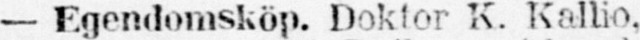— Egendomsköp. Doktor K. Kaltio,
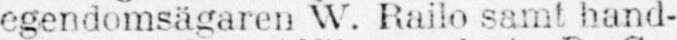egendomsägaren W. Railo samt hand-
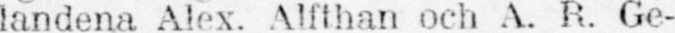landena Alex. Alfthan och A. R. Ge-
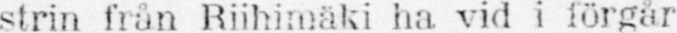strin från Riihimäki ha vid i förgår
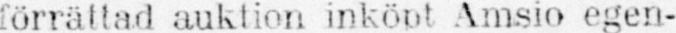förrättad auktion inköpt Amsio egen-
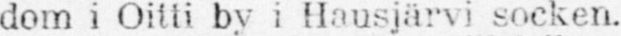dom i Oitti by i Hausjärvi socken.
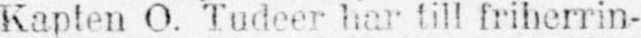Kapten O. Tudeer har till friherrin-
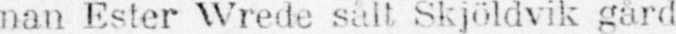nan Ester Wrede sålt Skjöldvik gård
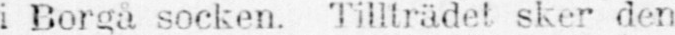i Borgå socken. Tillträdet sker den
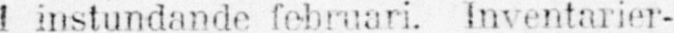I instundande februari. Inventarier-
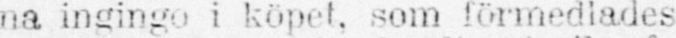na ingingo i köpet, som förmedlades
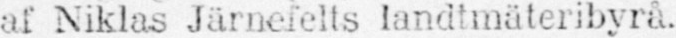af Niklas Järnefelts landtmäteribyrå.
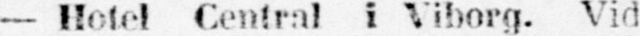— Hotel Central i Viborg. Vid
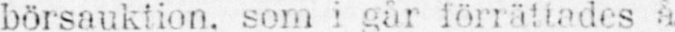börsauktion, som i går förrättades å
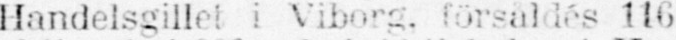Handelsgillet i Viborg. försåldés 116
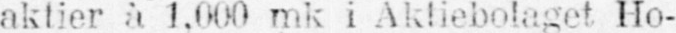aktier à 1,000 mk i Aktiebotaget Ho-
